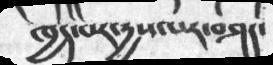ཁྱད་པར་དྱས་ལར་བཤད་
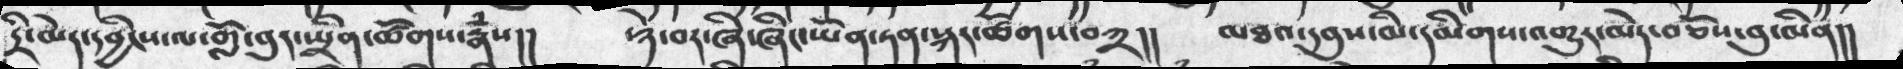དྲི་མེད་དབྱིངས་ལ་གློ་བུར་སྤྲིན་ཚོགས་རྣཾས།།   ཉེ་བར་ཞི་ཞིང་ཡོན་ཏན་སྐད་ཚོགས་བཀྲ།།    མཐའ་དབུས་མི་དམིགས་འགྱུར་མེད་བཅོས་བུ་མིན།།
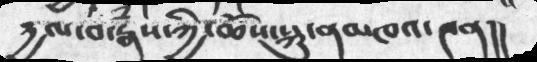དྱལ་བ་རྣཾས་ཀྱི་ཆོས་སྐུ་ནམཁའ་༤ན།།
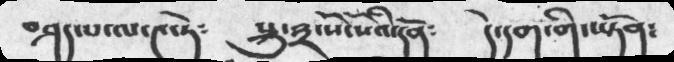བཤད་པ་ལ་༤་ཏེ༴   སྐུ་༣་སོ་སོའི་དོན༴    དེ་དག་གི་ཡྟོན༴
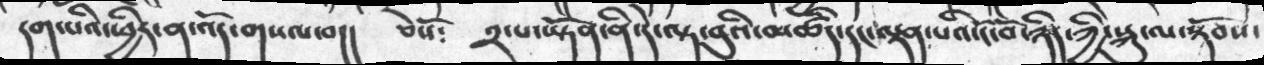དག་པའི་ཕྱིར་ན་འོད་གསལ་བ།།   ཅེསོ༴   ༢་པ་ཡྟོན་ནི་དེ་ལྟ་བུའི་མཚིད་དང་ལྡན་པའི་ངོ་བོ་ཉིད་ཀྱི་སྐུ་ལ་སྟོབས་
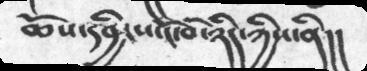ཆོས་དབྱིངས་ངོ་བོ་ཉིད་ཀྱིས་ནི།།
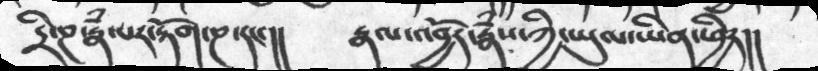དྲི་ཎ་རྣཾ་པར་རྟོག་ཎ་དང་།།    རྣལ་འབྱོར་རྣཾས་ཀྱི་ཡུལ་ཡིན་ཕྱིར།།
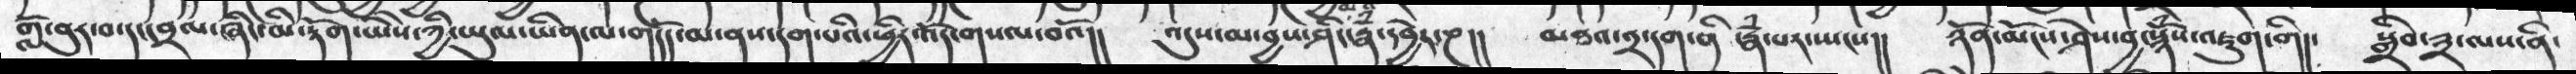གློ་བུར་བ་དང་བྲལ་ཞིང་མི་རྟོག་ཡེེས་ཀྱི་ཡུལ་ཡིན་ལ་གདོད་མ་ནས་དག་པའི་ཕྱིར་འོད་གསལ་བའོ།།  འདུས་མ་བྱས་ཤིང་རྣཾ་དབྱེར་ཎ།།  མཐའ་༢་དག་ནི་རྣཾ་པར་སྤངས།།  ཉོན་མོངས་ཤེས་བྱ་སྙོཾ་འཇུག་གི།   སྒྲིབ་༣་ལས་ནི་
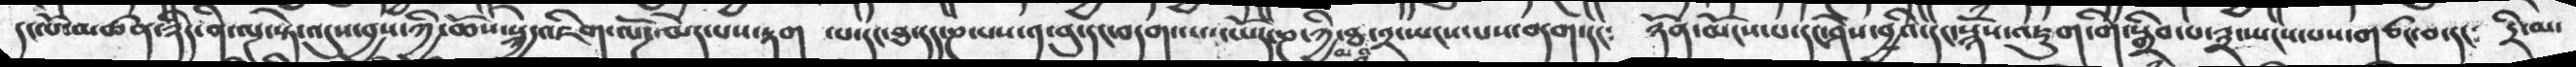དང་པོ་མཚན་ཉིད་ནི་ལྔ་སྟེ་འདུས་བྱས་ཀྱི་ཆོས་སྐྱེ་འཇིག་ལོཌ་མེད་པས་རྟག   ་པ་དང་ཐ་དད་ཎ་པས་༡་བུ་དང་བདག་ ཡོད་ཎ་ཀྱི་མཐའ་༢་སྤངས་པས་བདག་དང༴   ཉོན་མོངས་པ་དང་ཤེས་བྱའི་དང་སྙོཾས་འཇུག་གི་སྒྲིབ་པ་༣་སྤངས་པས་གཙང་བ་དང༴  དྲི་མ་
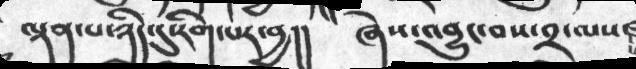ལྡན་པ་ཉིད་དུ་རིག་པར་བྱ།།     ཞེས་འབྱུང་བས་༢་ལས་
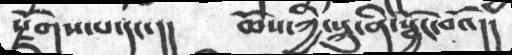སྫོགས་པ་དང་།།    ཆོས་ཀྱི་སྐུ་ནི་སྦྱོང་བའོ།།
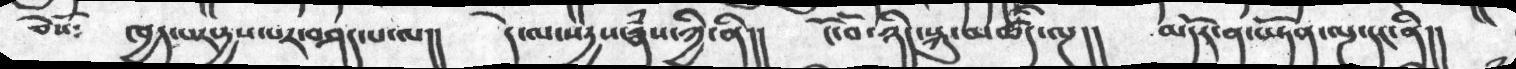ཅེསོ༴   ཁྱད་པར་དྱས་པར་བཤད་པ་ལ།།  དེ་ལ་སདྱས་རྣཾས་ཀྱི་ནི།།   ངོ་བོ་ཉིད་སྐུ་མཚོད་ལྔ་།།   མདོར་ན་ཡྟོན་ལྔ་དང་ནི།།
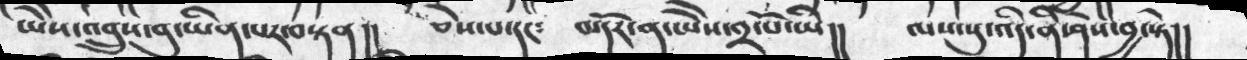ཡེེས་འབྲུས་བུ་ཡིན་པར་བསྟན།།  ཅེས་པ་དང༴   མདོར་ན་ཡེེས་༢་པོ་ཡི།།   ལས་སུ་འདི་ནི་ཤེས་བྱ་སྟེ།།
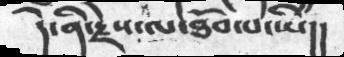དེ་ནི་རྗེས་ལ་ཐོབ་པ་ཡིན།།
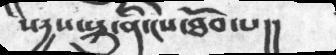སདྱས་སྐུ་ནི་ངས་ཐོབ་པ།།
